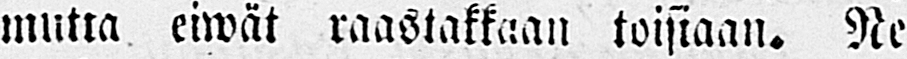mutta eiwät raastakkaan toisiaan. Ne
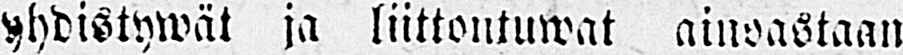yhdistywät ja liittoutuwat ainoastaan
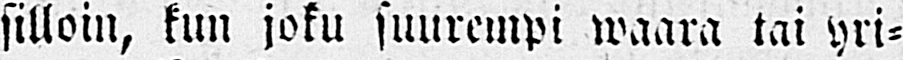silloin, kun joku suurempi waara tai yri-
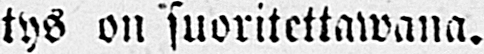tys on suoritettawana.
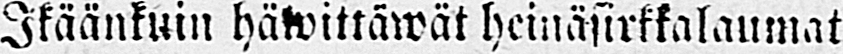Ikäänkuin häwittäwät heinäsirkkalaumat
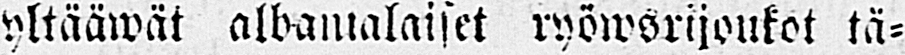yltääwät albanialaiset ryöwsrijoukot tä-
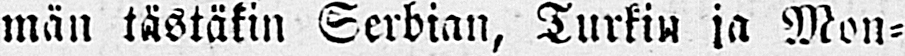män tästäkin Serbian, Turkin ja Mon-
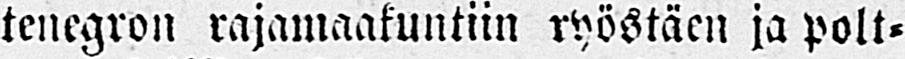tenegron rajamaakuntiin ryöstäen ja polt-
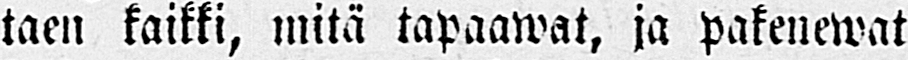taen kaikki, mitä tapaawat, ja pakenewat
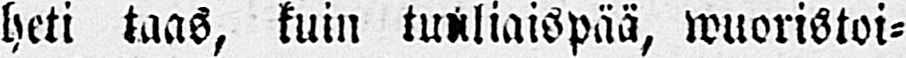heti taas, kuin tuuliaispää, wuoristoi-
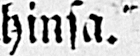hinsa."
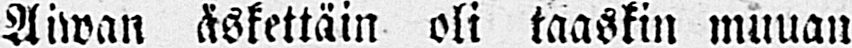Aiwan äskettäin oli taaskin muuan
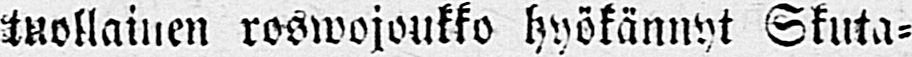tuollainen roswojoukko hyökännyt Skuta-
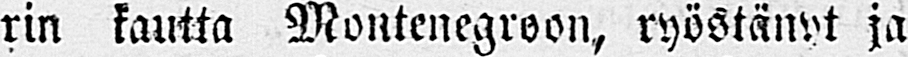rin kautta Montenegroon, ryöstänyt ja
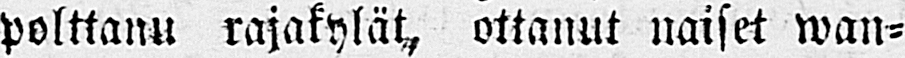polttanu rajakylät, ottanut naiset wan-
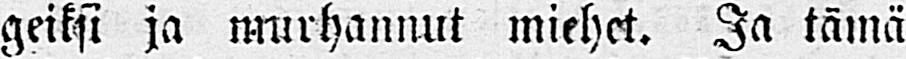geiksi ja murhannut miehet. Ja tämä
